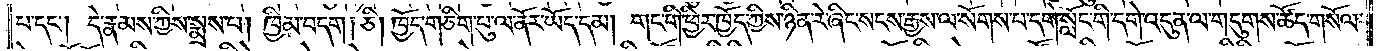པ་དང༌། དེ་རྣམས་ཀྱིས་སྨྲས་པ། ཁྱིམ་བདག །ཅི། ཁྱོད་གཅིག་པུ་ལ་ནོར་ཡོད་དམ། གང་གི་ཕྱིར་ཁྱོད་ཀྱིས་ཉིན་རེ་ཞིང་སངས་རྒྱས་ལ་སོགས་པ་དགེ་སློང་གི་དགེ་འདུན་ལ་གདུགས་ཚོད་གསོལ་
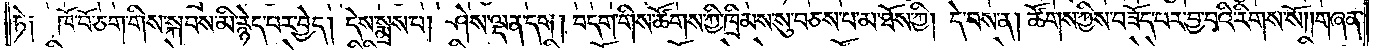ཏེ༑ ཁོ་བོ་ཅག་གིས་སྐབས་མི་རྙེད་པར་བྱེད། དེས་སྨྲས་པ། ཤེས་ལྡན་དག །བདག་གིས་ཚོགས་ཀྱི་ཁྲིམས་སུ་བཅས་པ་མ་ཐོས་ཀྱི། དེ་བས་ན། ཚོགས་ཀྱིས་བཟོད་པར་བྱ་བའི་རིགས་སོ། །གཞན་
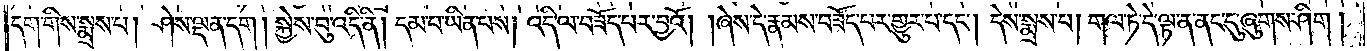དག་གིས་སྨྲས་པ། ཤེས་ལྡན་དག །སྐྱེས་བུ་འདི་ནི། དམ་པ་ཡིན་པས། འདི་ལ་བཟོད་པར་བྱའོ། །ཞེས་དེ་རྣམས་བཟོད་པར་གྱུར་པ་དང༌། དེས་སྨྲས་པ། གལ་ཏེ་དེ་ལྟ་ན་ནང་དུ་ཞུགས་ཤིག །
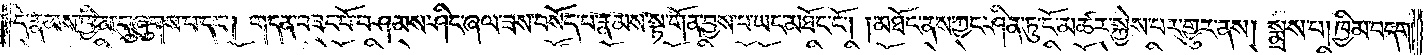དེ་རྣམས་ཁྱིམ་དུ་ཞུགས་པ་དང༌། གདན་བཟང་པོ་བཤམས་ཤིང་ཞལ་ཟས་བསོད་པ་རྣམས་སྟ་གོན་བྱས་པ་ཡང་མཐོང་ངོ༌། །མཐོང་ནས་ཀྱང་ཤིན་ཏུ་ངོ་མཚར་སྐྱེས་པར་གྱུར་ནས། སྨྲས་པ། ཁྱིམ་བདག །
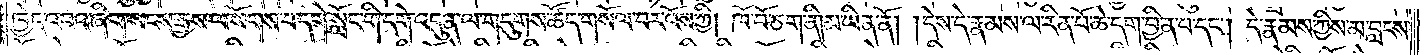ཁྱེད་འབའ་ཞིག་སངས་རྒྱས་ལ་སོགས་པ་དགེ་སློང་གི་དགེ་འདུན་ལ་གདུགས་ཚོད་གསོལ་བར་འོས་ཀྱི། ཁོ་བོ་ཅག་ནི།མ་ཡིན་ནོ། །དེས་དེ་རྣམས་ལ་རིན་པོ་ཆེ་དག་བྱིན་པ་དང༌། དེ་རྣམས་ཀྱིས་མ་བླངས་
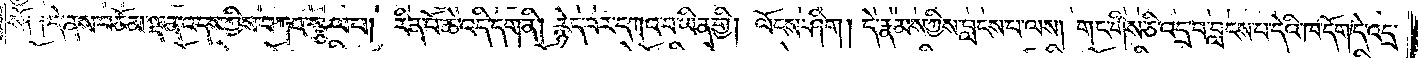སོ། །དེ་ནས་བཅོམ་ལྡན་འདས་ཀྱིས་བཀའ་སྩལ་པ། རིན་པོ་ཆེ་འདི་དག་ནི། རྙེད་པར་དཀའ་བ་ཡིན་གྱི། ལོངས་ཤིག །དེ་རྣམས་ཀྱིས་བླངས་པ་ལས། གང་གིས་ཅི་འདྲ་བ་བླངས་པ་དེའི་ཁ་དོག་དེ་འདྲ་
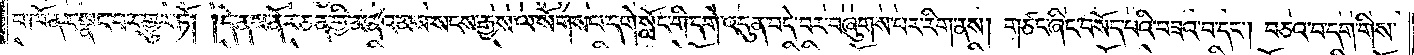བ་ཁོ་ནར་སྣང་བར་གྱུར་ཏོ། །དེ་ནས་ནོར་ཅན་གྱི་མནའ་མས་སངས་རྒྱས་ལ་སོགས་པ་དགེ་སློང་གི་དགེ་འདུན་བདེ་བར་བཞུགས་པར་རིག་ནས། གཙང་ཞིང་བསོད་པའི་བཟའ་བ་དང༌། བཅའ་བ་དག་གིས་
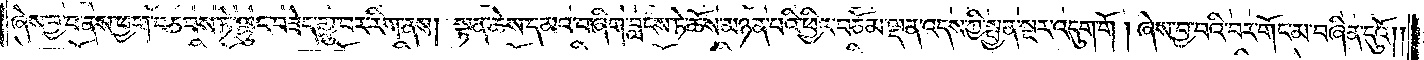ཞེས་བྱ་བ་ནས་ཕྱག་བཅབས་ཏེ་ལྷུང་བཟེད་གྱུ་བར་རིག་ནས། སྟན་ཆེས་དམའ་བ་ཞིག་བླངས་ཏེ་ཆོས་མཉན་པའི་ཕྱིར་བཅོམ་ལྡན་འདས་ཀྱི་སྤྱན་སྔར་འདུག་གོ །ཞེས་བྱ་བའི་བར་གོང་མ་བཞིན་དུའོ། །
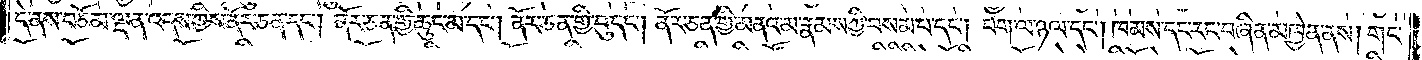དེ་ནས་བཅོམ་ལྡན་འདས་ཀྱིས་ནོར་ཅན་དང༌། ནོར་ཅན་གྱི་ཆུང་མ་དང༌། ནོར་ཅན་གྱི་བུ་དང༌། ནོར་ཅན་གྱི་མནའ་མ་རྣམས་ཀྱི་བསམ་པ་དང༌། བག་ལ་ཉལ་དང༌། ཁམས་དང་རང་བཞིན་མཁྱེན་ནས། གང་
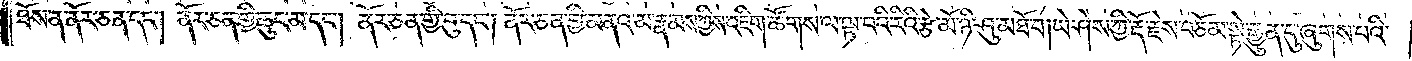ཐོས་ན་ནོར་ཅན་དང༌། ནོར་ཅན་གྱི་ཆུང་མ་དང༌། ནོར་ཅན་གྱི་བུ་དང༌། ནོར་ཅན་གྱི་མནའ་མ་རྣམས་ཀྱིས་འཇིག་ཚོགས་ལ་ལྟ་བའི་རིའི་རྩེ་མོ་ཉི་ཤུ་མཐོ་བ།ཡེ་ཤེས་ཀྱི་རྡོ་རྗེས་བཅོམ་སྟེ་རྒྱུན་དུ་ཞུགས་པའི་
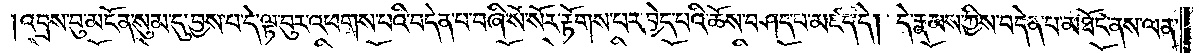།འབྲས་བུ་མངོན་སུམ་དུ་བྱས་པ་དེ་ལྟ་བུར་འཕགས་པའི་བདེན་པ་བཞི་སོ་སོར་རྟོགས་པར་བྱེད་པའི་ཆོས་བཤད་པ་མཛད་དེ། དེ་རྣམས་ཀྱིས་བདེན་པ་མཐོང་ནས་ལན་
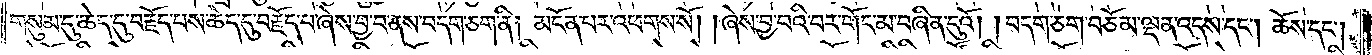གསུམ་དུ་ཆེད་དུ་བརྗོད་པས་ཆེད་དུ་བརྗོད་པ་ཞེས་བྱ་བ་ནས་བདག་ཅག་ནི། མངོན་པར་འཕགས་སོ། །ཞེས་བྱ་བའི་བར་གོང་མ་བཞིན་དུའོ། །བདག་ཅག་བཅོམ་ལྡན་འདས་དང༌། ཆོས་དང་
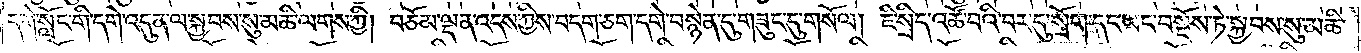དགེ་སློང་གི་དགེ་འདུན་ལ་སྐྱབས་སུ་མཆི་ལགས་ཀྱི། བཅོམ་ལྡན་འདས་ཀྱིས་བདག་ཅག་དགེ་བསྙེན་དུ་གཟུང་དུ་གསོལ། ཇི་སྲིད་འཚོ་བའི་བར་དུ་སྲོག་དང་ཡང་བསྔོས་ཏེ་སྐྱབས་སུ་མཆི་
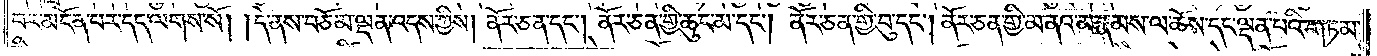བར་མངོན་པར་དད་ལགས་སོ། །དེ་ནས་བཅོམ་ལྡན་འདས་ཀྱིས། ནོར་ཅན་དང༌། ནོར་ཅན་གྱི་ཆུང་མ་དང༌། ནོར་ཅན་གྱི་བུ་དང༌། ནོར་ཅན་གྱི་མནའ་མ་རྣམས་ལ་ཆོས་དང་ལྡན་པའི་གཏམ་
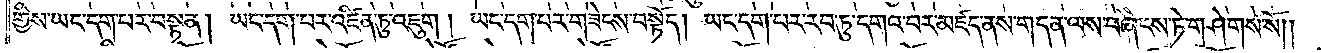གྱིས་ཡང་དག་པར་བསྟན། ཡང་དག་པར་འཛིན་ཏུ་འཇུག །ཡང་དག་པར་གཟེངས་བསྟོད། ཡང་དག་པར་རབ་ཏུ་དགའ་བར་མཛད་ནས་གདན་ལས་བཞེངས་ཏེ་གཤེགས་སོ༎
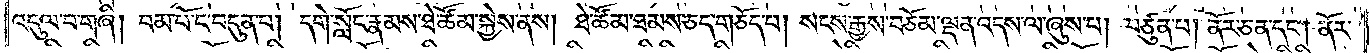འདུལ་བ་གཞི། བམ་པོ་ང་བདུན་པ། དགེ་སློང་རྣམས་ཐེ་ཚོམ་སྐྱེས་ནས། ཐེ་ཚོམ་ཐམས་ཅད་གཅོད་པ། སངས་རྒྱས་བཅོམ་ལྡན་འདས་ལ་ཞུས་པ། བཙུན་པ། ནོར་ཅན་དང༌། ནོར་
